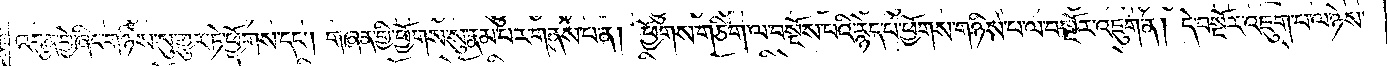འདུན་བྱེ་ཞིང་གཉིས་སུ་གྱུར་ཏེ་ཕྱོགས་དང༌། གཞན་གྱི་ཕྱོགས་སུ་རྣམ་པར་གནས་པ་ན། ཕྱོགས་གཅིག་ལ་བསྔོས་པའི་རྙེད་པ་ཕྱོགས་གཉིས་པ་ལ་བསྔོར་འཇུག་ན། དེ་བསྔོར་འཇུག་པ་ལ་ཉེས་
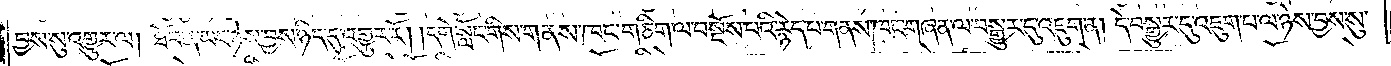བྱས་སུ་འགྱུར་ལ། ཐོབ་ན་ཡང་ཉེས་བྱས་ཉིད་དུ་འགྱུར་རོ། །དགེ་སློང་གིས་གནས་ཁང་གཅིག་ལ་བསྔོས་པའི་རྙེད་པ་གནས་ཁང་གཞན་ལ་བསྒྱུར་དུ་འཇུག་ན། དེ་བསྒྱུར་དུ་འཇུག་པ་ལ་ཉེས་བྱས་སུ་
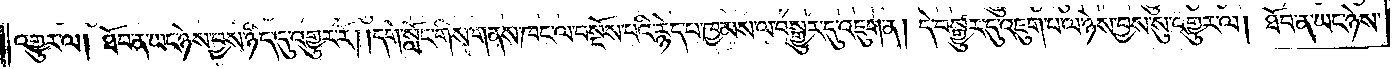འགྱུར་ལ། ཐོབ་ན་ཡང་ཉེས་བྱས་ཉིད་དུ་འགྱུར་རོ། །དགེ་སློང་གིས་གནས་ཁང་ལ་བསྔོས་པའི་རྙེད་པ་ཁྱམས་ལ་བསྒྱུར་དུ་འཇུག་ན། དེ་བསྒྱུར་དུ་འཇུག་པ་ལ་ཉེས་བྱས་སུ་འགྱུར་ལ། ཐོབ་ན་ཡང་ཉེས་
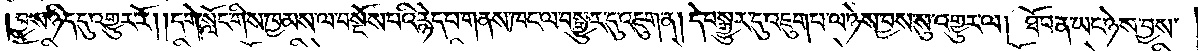བྱས་ཉིད་དུ་འགྱུར་རོ། །དགེ་སློང་གིས་ཁྱམས་ལ་བསྔོས་པའི་རྙེད་པ་གནས་ཁང་ལ་བསྒྱུར་དུ་འཇུག་ན། དེ་བསྒྱུར་དུ་འཇུག་པ་ལ་ཉེས་བྱས་སུ་འགྱུར་ལ། ཐོབ་ན་ཡང་ཉེས་བྱས་
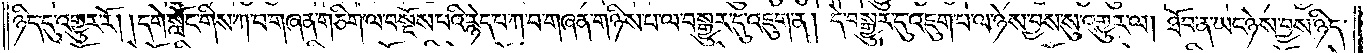ཉིད་དུ་འགྱུར་རོ། །དགེ་སློང་གིས་ཀ་བ་གཞན་གཅིག་ལ་བསྔོས་པའི་རྙེད་པ་ཀ་བ་གཞན་གཉིས་པ་ལ་བསྒྱུར་དུ་འཇུག་ན། དེ་བསྒྱུར་དུ་འཇུག་པ་ལ་ཉེས་བྱས་སུ་འགྱུར་ལ། ཐོབ་ན་ཡང་ཉེས་བྱས་ཉིད་
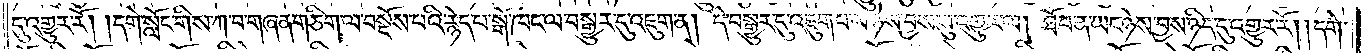དུ་འགྱུར་རོ། །དགེ་སློང་གིས་ཀ་བ་གཞན་གཅིག་ལ་བསྔོས་པའི་རྙེད་པ་སྒོ་ཁང་ལ་བསྒྱུར་དུ་འཇུག་ན། དེ་བསྒྱུར་དུ་འཇུག་པ་ལ་ཉེས་བྱས་སུ་འགྱུར་ལ། ཐོབ་ན་ཡང་ཉེས་བྱས་ཉིད་དུ་འགྱུར་རོ། །དགེ་
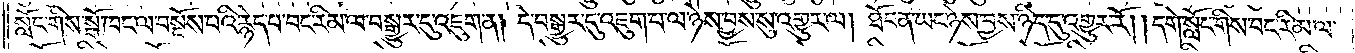སློང་གིས་སྒོ་ཁང་ལ་བསྔོས་པའི་རྙེད་པ་བང་རིམ་ལ་བསྒྱུར་དུ་འཇུག་ན། དེ་བསྒྱུར་དུ་འཇུག་པ་ལ་ཉེས་བྱས་སུ་འགྱུར་ལ། ཐོབ་ན་ཡང་ཉེས་བྱས་ཉིད་དུ་འགྱུར་རོ། །དགེ་སློང་གིས་བང་རིམ་ལ་
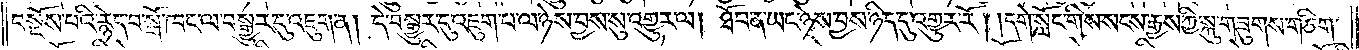བསྔོས་པའི་རྙེད་པ་སྒོ་ཁང་ལ་བསྒྱུར་དུ་འཇུག་ན། དེ་བསྒྱུར་དུ་འཇུག་པ་ལ་ཉེས་བྱས་སུ་འགྱུར་ལ། ཐོབ་ན་ཡང་ཉེས་བྱས་ཉིད་དུ་འགྱུར་རོ། །དགེ་སློང་གིས་སངས་རྒྱས་ཀྱི་སྐུ་གཟུགས་གཅིག་
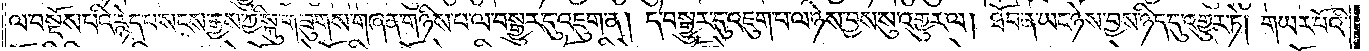ལ་བསྔོས་པའི་རྙེད་པ་སངས་རྒྱས་ཀྱི་སྐུ་གཟུགས་གཞན་གཉིས་པ་ལ་བསྒྱུར་དུ་འཇུག་ན། དེ་བསྒྱུར་དུ་འཇུག་པ་ལ་ཉེས་བྱས་སུ་འགྱུར་ལ། ཐོབ་ན་ཡང་ཉེས་བྱས་ཉིད་དུ་འགྱུར་ཏེ། གཡར་པོའི་
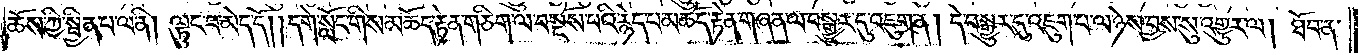ཆོས་ཀྱི་སྦྱིན་པ་ལ་ནི། ལྟུང་བ་མེད་དོ། །དགེ་སློང་གིས་མཆོད་རྟེན་གཅིག་ལ་བསྔོས་པའི་རྙེད་པ་མཆོད་རྟེན་གཞན་ལ་བསྒྱུར་དུ་འཇུག་ན། དེ་བསྒྱུར་དུ་འཇུག་པ་ལ་ཉེས་བྱས་སུ་འགྱུར་ལ། ཐོབ་ན་
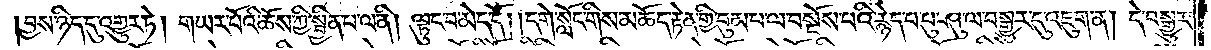བྱས་ཉིད་དུ་འགྱུར་ཏེ། གཡར་པོའི་ཆོས་ཀྱི་སྦྱིན་པ་ལ་ནི། ལྟུང་བ་མེད་དོ། །དགེ་སློང་གིས་མཆོད་རྟེན་གྱི་བུམ་པ་ལ་བསྔོས་པའི་རྙེད་པ་པུ་ཤུ་ལ་བསྒྱུར་དུ་འཇུག་ན། དེ་བསྒྱུར་
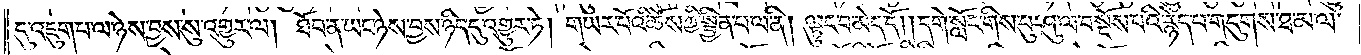དུ་འཇུག་པ་ལ་ཉེས་བྱས་སུ་འགྱུར་ལ། ཐོབ་ན་ཡང་ཉེས་བྱས་ཉིད་དུ་འགྱུར་ཏེ། གཡར་པོའི་ཆོས་ཀྱི་སྦྱིན་པ་ལ་ནི། ལྟུང་བ་མེད་དོ། །དགེ་སློང་གིས་པུ་ཤུ་ལ་བསྔོས་པའི་རྙེད་པ་གདུགས་ཐ་མ་ལ་
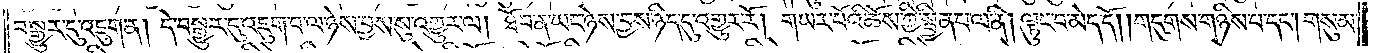བསྒྱུར་དུ་འཇུག་ན། དེ་བསྒྱུར་དུ་འཇུག་པ་ལ་ཉེས་བྱས་སུ་འགྱུར་ལ། ཐོབ་ན་ཡང་ཉེས་བྱས་ཉིད་དུ་འགྱུར་རོ། །གཡར་པོའི་ཆོས་ཀྱི་སྦྱིན་པ་ལ་ནི། ལྟུང་བ་མེད་དོ། །གདུགས་གཉིས་པ་དང༌། གསུམ་
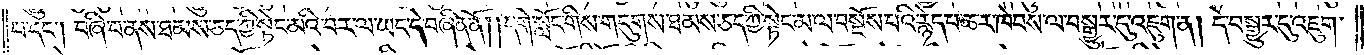པ་དང༌། བཞི་པ་ནས་ཐམས་ཅད་ཀྱི་སྟེང་མའི་བར་ལ་ཡང་དེ་བཞིན་ནོ། །དགེ་སློང་གིས་གདུགས་ཐམས་ཅད་ཀྱི་སྟེང་མ་ལ་བསྔོས་པའི་རྙེད་པ་ཆར་ཁེབས་ལ་བསྒྱུར་དུ་འཇུག་ན། དེ་བསྒྱུར་དུ་འཇུག་
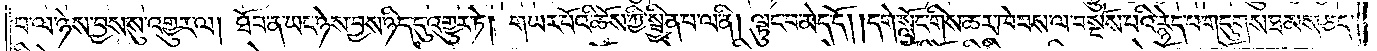པ་ལ་ཉེས་བྱས་སུ་འགྱུར་ལ། ཐོབ་ན་ཡང་ཉེས་བྱས་ཉིད་དུ་འགྱུར་ཏེ། གཡར་པོའི་ཆོས་ཀྱི་སྦྱིན་པ་ལ་ནི། ལྟུང་བ་མེད་དོ། །དགེ་སློང་གིས་ཆར་ཁེབས་ལ་བསྔོས་པའི་རྙེད་པ་གདུགས་ཐམས་ཅད་
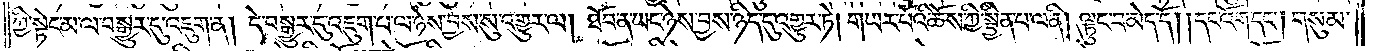ཀྱི་སྟེང་མ་ལ་བསྒྱུར་དུ་འཇུག་ན། དེ་བསྒྱུར་དུ་འཇུག་པ་ལ་ཉེས་བྱས་སུ་འགྱུར་ལ། ཐོབ་ན་ཡང་ཉེས་བྱས་ཉིད་དུ་འགྱུར་ཏེ། གཡར་པོའི་ཆོས་ཀྱི་སྦྱིན་པ་ལ་ནི། ལྟུང་བ་མེད་དོ། །དང་འོག་དང༌། གསུམ་
